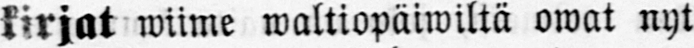kirjat wiime waltiopäiwiltä owat nyt
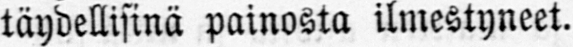täydellisinä painosta ilmestyneet.
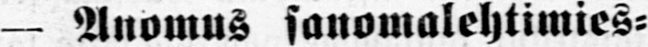— Anomus sanomalehtimies-
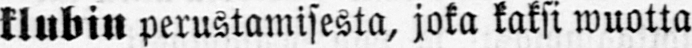klubin perustamisesta, joka kaksi wuotta
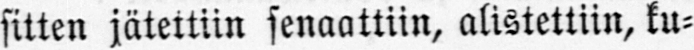sitten jätettiin senaattiin, alistettiin, ku-
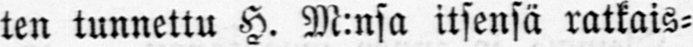ten tunnettu H. M:nsa itsensä ratkais-
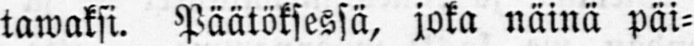tawaksi. Päätöksessä, joka näinä päi-
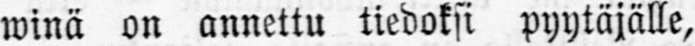winä on annettu tiedoksi pyytäjälle,
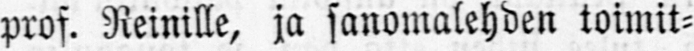prof. Reinille, ja sanomalehden toimit-
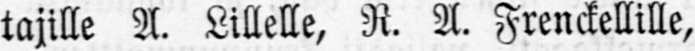tajille A. Lillelle, R. A. Frenckellille,
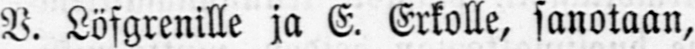V. Löfgrenille ja E. Erkolle, sanotaan,
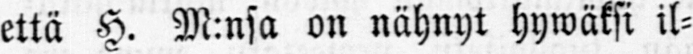että H. M:nsa on nähnyt hywäksi il-
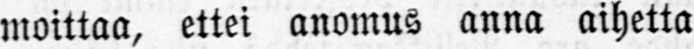moittaa, ettei anomus anna aihetta
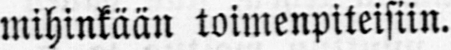mihinkään toimenpiteisiin.
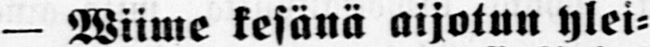— Wiime kesänä aijotun ylei-
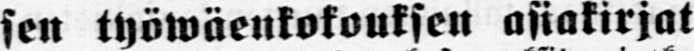sen työwäenkokouksen asiakirjat
